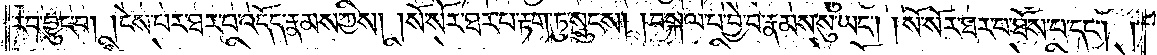རབ་བྱུང་བ། །ངེས་པར་ཐར་པ་འདོད་རྣམས་ཀྱིས། །སོ་སོར་ཐར་པ་རྟག་ཏུ་སྲུངས། །བསྐལ་པ་བྱེ་བ་རྣམས་སུ་ཡང༌། །སོ་སོར་ཐར་པ་ཐོས་པ་དང༌། །
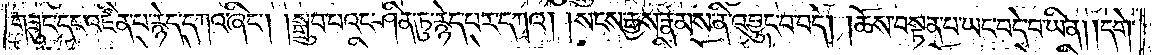གཟུང་དང་འཛིན་པ་རྙེད་དཀའ་ཞིང༌། །སྒྲུབ་པའང་ཤིན་ཏུ་རྙེད་པར་དཀའ། །སངས་རྒྱས་རྣམས་ནི་འབྱུང་བ་བདེ། །ཆོས་བསྟན་པ་ཡང་བདེ་བ་ཡིན། །དགེ་
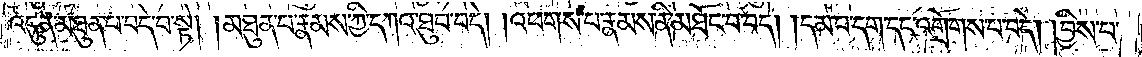འདུན་མཐུན་པ་བདེ་བ་སྟེ། །མཐུན་པ་རྣམས་ཀྱི་དཀའ་ཐུབ་པ་དེ། །འཕགས་པ་རྣམས་ནི་མཐོང་བ་བདེ། །དམ་པ་དག་དང་འགྲོགས་པ་བདེ། །བྱིས་པ་
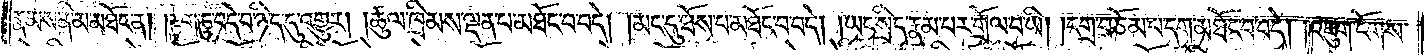རྣམས་ནི་མ་མཐོང་ན། །རྟག་ཏུ་བདེ་བ་ཉིད་དུ་འགྱུར། །ཚུལ་ཁྲིམས་ལྡན་པ་མཐོང་བ་བདེ། །མང་དུ་ཐོས་པ་མཐོང་བ་བདེ། །ཡང་སྲིད་རྣམ་པར་གྲོལ་བ་ཡི། །དགྲ་བཅོམ་པ་དག་མཐོང་བ་བདེ། །འཇུག་ངོགས་
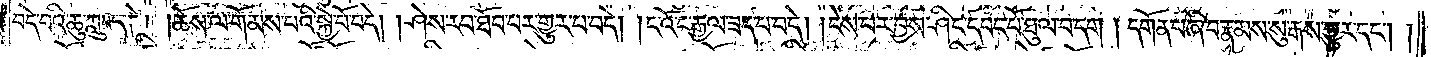བདེ་བའི་ཆུ་ཀླུང་བདེ། །ཆོས་ལ་གོམས་པའི་སྐྱེ་བོ་བདེ། །ཤེས་རབ་ཐོབ་པར་གྱུར་པ་བདེ། །ང་འོང་རྒྱལ་ཟད་པ་བདེ། །ངེས་པར་བྱས་ཤིང་དབང་པོ་ཐུལ་བ་དག །དགོན་པ་ཞི་བ་རྣམས་སུ་རྒས་གྱུར་དང༌། །
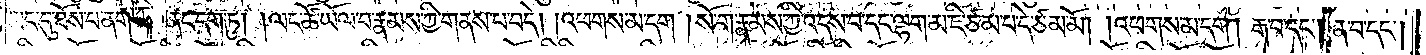མང་དུ་ཐོས་པ་ནགས་ཀྱི་ནང་དག་ཏུ། །ལང་ཚོ་ཡོལ་བ་རྣམས་ཀྱི་གནས་པ་བདེ། །འཕགས་མ་དག །སོ་ག་རྣམས་ཀྱི་འདས་པ་དང་ལྷག་མ་ཇི་ཙམ་པ་དེ་ཙམ་མོ། །འཕགས་མ་དག །རྒ་བ་དང༌། ན་བ་དང༌།
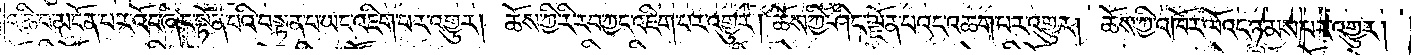འཆི་བ་མངོན་པར་འོང་ཞིང་སྟོན་པའི་བསྟན་པ་ཡང་འཇིག་པར་འགྱུར། །ཆོས་ཀྱི་རི་རབ་ཀྱང་འཇིག་པར་འགྱུར། ཆོས་ཀྱི་ཤིང་ལྗོན་པའང་འཆག་པར་འགྱུར། ཆོས་ཀྱི་འཁོར་ལོའང་ཉམས་པར་འགྱུར།
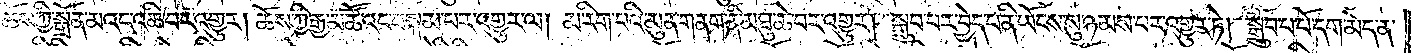ཆོས་ཀྱི་སྒྲོན་མའང་འཆི་བར་འགྱུར། ཆོས་ཀྱི་རྒྱ་མཚོ་འང་བསྐམ་པར་འགྱུར་ལ། མ་རིག་པའི་མུན་གནག་ནི་མཐུ་ཆེ་བར་འགྱུར། སྒྲུབ་པར་བྱེད་པ་ནི་ཡོངས་སུ་ཉམས་པར་འགྱུར་ཏེ། སྒྲུབ་པ་པོ་དག་མེད་ན་
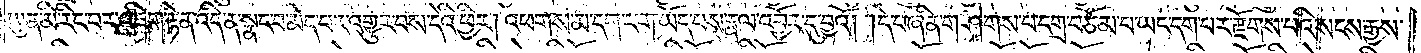ཡུན་མི་རིང་བར་འཇིག་རྟེན་འདི་ན་སྣང་བ་མེད་པར་འགྱུར་བས་དེའི་ཕྱིར། འཕགས་མ་དག་བག་ཡོད་པས་རྣལ་འབྱོར་དུ་བྱའོ། །དེ་བཞིན་གཤེགས་པ་དགྲ་བཅོམ་པ་ཡང་དག་པར་རྫོགས་པའི་སངས་རྒྱས་
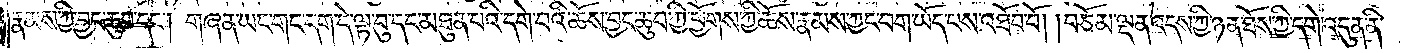རྣམས་ཀྱི་བྱང་ཆུབ་དང༌། གཞན་ཡང་གང་དག་དེ་ལྟ་བུ་དང་མཐུན་པའི་དགེ་བའི་ཆོས་བྱང་ཆུབ་ཀྱི་ཕྱོགས་ཀྱི་ཆོས་རྣམས་ཀྱང་བག་ཡོད་པས་འཐོབ་བོ། །བཅོམ་ལྡན་འདས་ཀྱི་ཉན་ཐོས་ཀྱི་དགེ་འདུན་ནི་
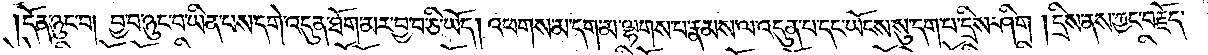དོན་ཉུང་བ། བྱ་བ་ཉུང་བ་ཡིན་པས་དགེ་འདུན་ཐོག་མར་བྱ་བ་ཅི་ཡོད། འཕགས་མ་དག་མ་ལྷགས་པ་རྣམས་ལ་འདུན་པ་དང་ཡོངས་སུ་དག་པ་དྲིས་ཤིག །དྲིས་ནས་ཀྱང་བརྗོད་
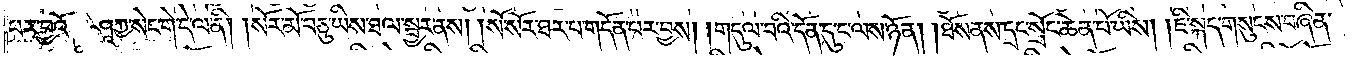པར་བྱའོ། །ཤཱཀྱ་སེང་གེ་དེ་ལ་ནི། །སོར་མོ་བཅུ་ཡིས་ཐལ་སྦྱར་ནས། །སོ་སོར་ཐར་པ་གདོན་པར་བྱས། །གདུལ་བའི་དོན་དུ་ང་ལས་ཉོན། །ཐོས་ནས་དྲང་སྲོང་ཆེན་པོ་ཡིས། །ཇི་སྐད་གསུངས་བཞིན་
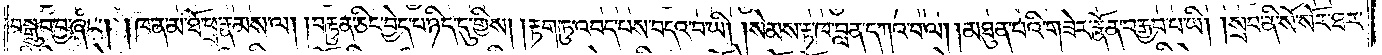བསྒྲུབ་བྱ་ཞིང༌། །ཁ་ན་མ་ཐོ་ཕྲ་རྣམས་ལ། །བརྟུན་ཅིང་བྱེད་པ་ཉིད་དུ་གྱིས། །རྟག་ཏུ་འབད་པས་བདའ་བ་ཡི། །སེམས་རྟ་ཁ་བླན་དཀའ་བ་ལ། །མཐུན་པའི་གཟེར་རྣོན་བརྒྱབ་པ་ཡི། །སྲབ་ནི་སོ་སོར་ཐར་
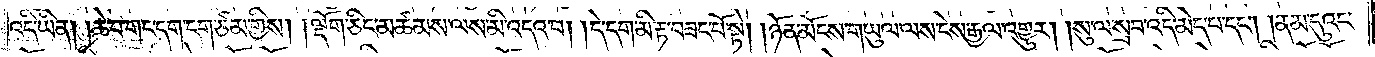འདི་ཡིན། །ཆེ་བ་གང་དག་ངག་ཙམ་གྱིས། །ལྡོག་ཅིང་མཚམས་ལས་མི་འདའ་བ། །དེ་དག་མི་རྟ་བཟང་པོ་སྟེ། །ཉོན་མོངས་གཡུལ་ལས་ངེས་རྒྱལ་འགྱུར། །སུ་ལ་སྲབ་འདི་མེད་པ་དང༌། །ནམ་དུའང་
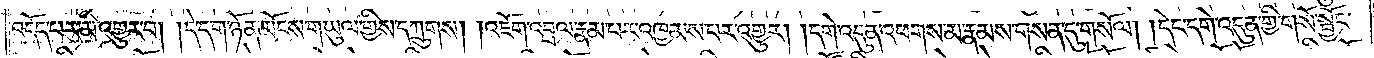འདོད་པར་མི་འགྱུར་པ། །དེ་དག་ཉོན་མོངས་གཡུལ་གྱིས་དཀྲུགས། །འཇོག་འབྲལ་རྣམ་པར་འཁྱམས་པར་འགྱུར། །དགེ་འདུན་འཕགས་མ་རྣམས་གསན་དུ་གསོལ། །དེང་དགེ་འདུན་གྱི་གསོ་སྦྱོང་
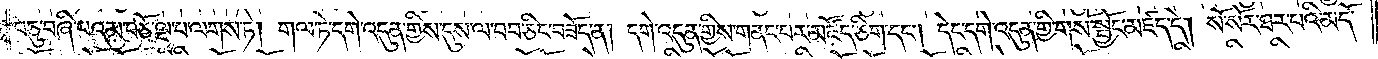བཅུ་བཞི་པའམ་བཅོ་ལྔ་པ་ལགས་ཏེ། གལ་ཏེ་དགེ་འདུན་གྱིས་དུས་ལ་བབ་ཅིང་བཟོད་ན། དགེ་འདུན་གྱིས་གནང་བར་མཛོད་ཅིག་དང༌། དེང་དགེ་འདུན་གྱི་གསོ་སྦྱོང་མཛད་དེ། སོ་སོར་ཐར་པའི་མདོ་
